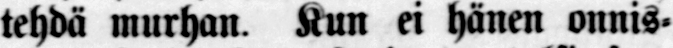tehdä murhan. Kun ei hänen onnis-
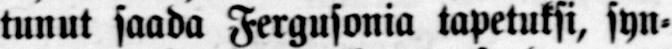tunut saada Fergusonia tapetuksi, syn-
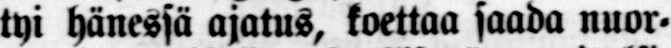tyi hänessä ajatus, koettaa saada nuor-
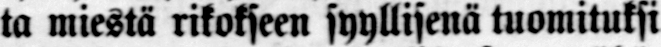ta miestä rikokseen syyllisenä tuomituksi
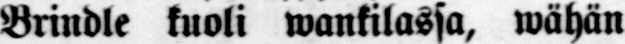Brindle kuoli wankilassa, wähän
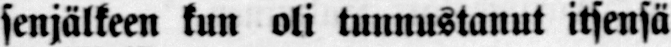senjälkeen kun oli tunnustanut itsensä
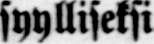syylliseksi
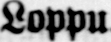Loppu.
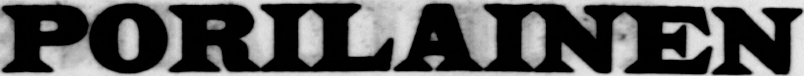PORILAINEN
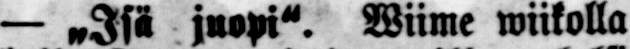— „Isä juopi". Wiime wiikolla
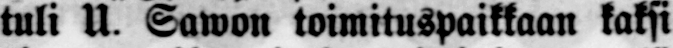tuli U. Sawon toimituspaikkaan kaksi
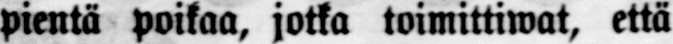pientä poikaa, jotka toimittiwat, että
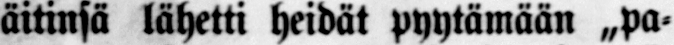äitinsä lähetti heidät pyytämään „pa-
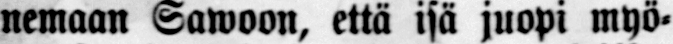nemaan Sawoon, että isä juopi myö-
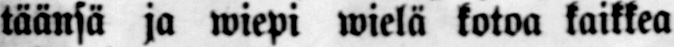täänsä ja wiepi wielä kotoa kaikkea
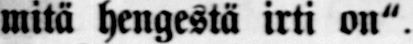mitä hengestä irti on".
